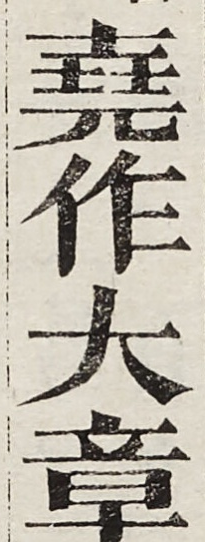堯作大章
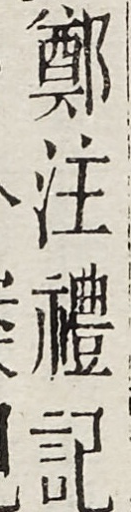鄭注禮記
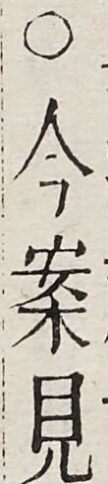○今案見
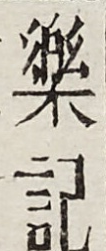樂記
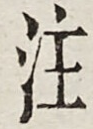注
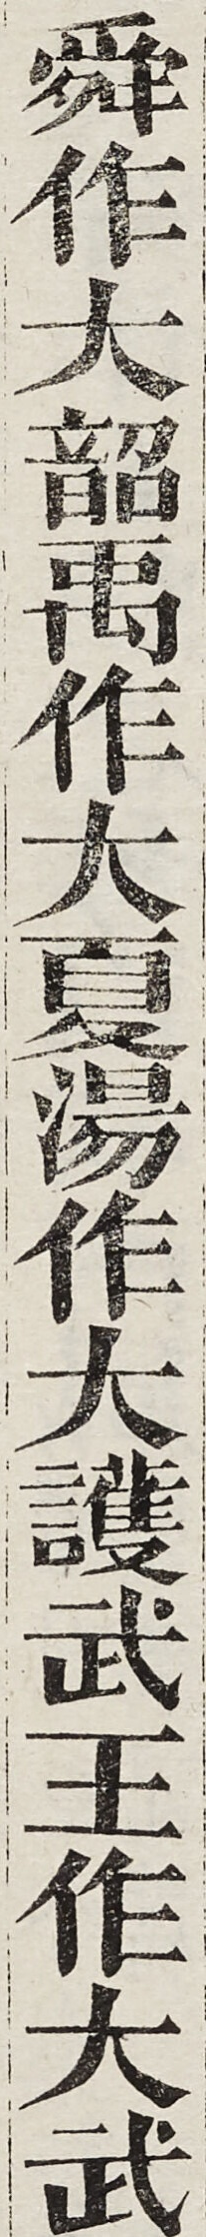舜作大韶禹作大夏湯作大護武王作大武
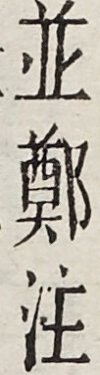並鄭注
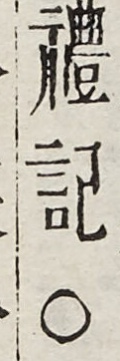禮記○
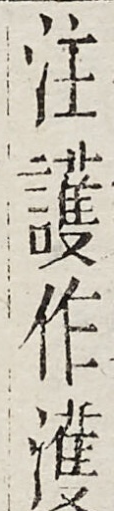注護作濩
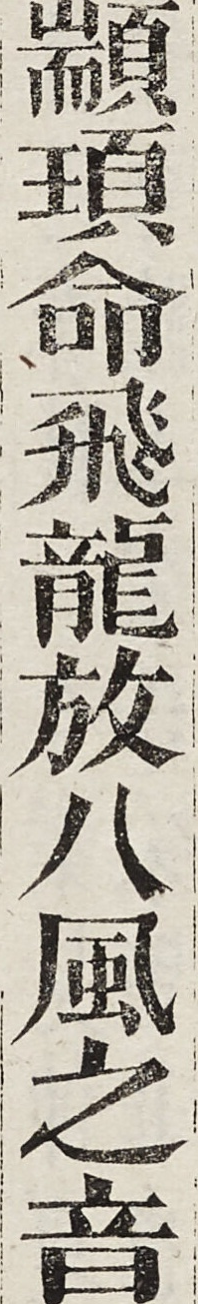顓頊命飛龍放八風之音
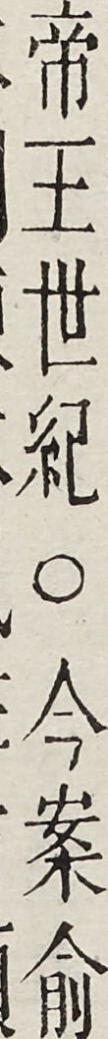帝王世紀○今案俞
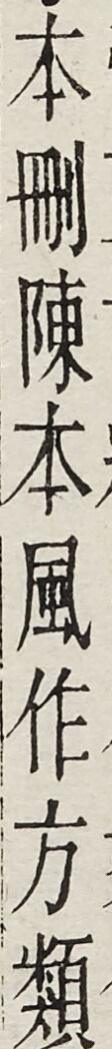本刪陳本風作方類
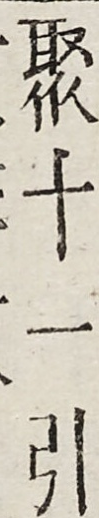聚十一引
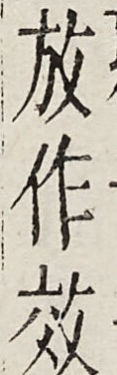放作效
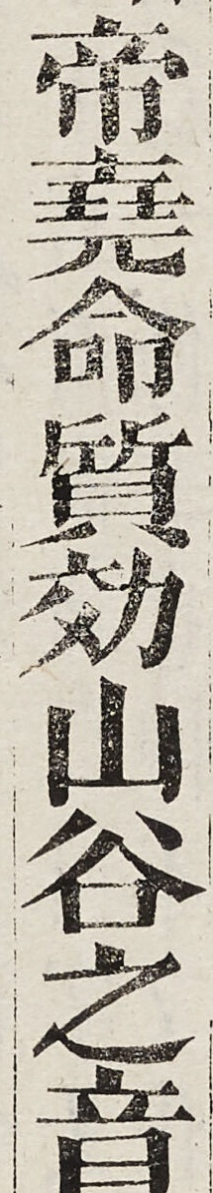帝堯命質効山谷之音
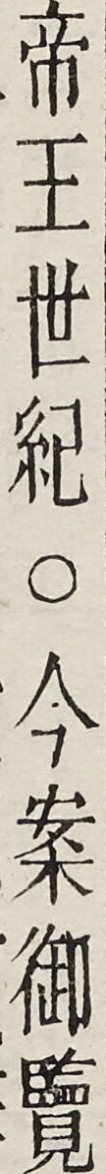帝王世紀○今案御覽
